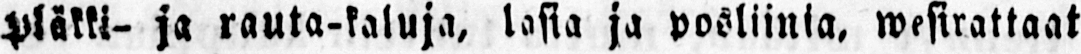pläkki- ja rauta-kaluja, lasia ja posliinia, wesirattaat
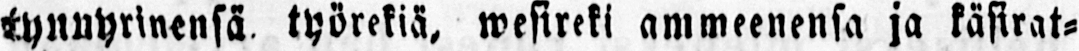tynnyrinensä työrekiä, wesireki ammeenensa ja käsirat-
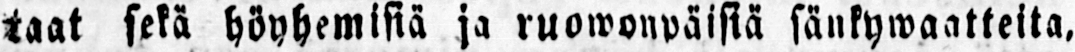taat sekä höyhemisiä ja ruowonpäisiä sänkywaatteita,
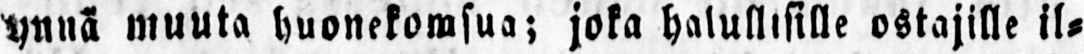ynnä muuta huonekomsua; joka halullisille ostajille il-
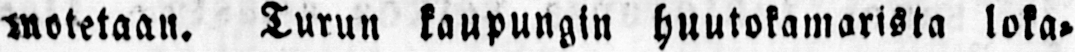motetaan. Turun kaupungin huutokamarista loka-
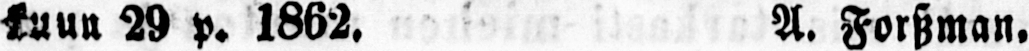kuun 29 p. 1862. A. Fortzman.
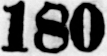180
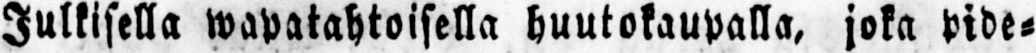Julkisella wapatahtoisella huutokaupalla, joka pide-
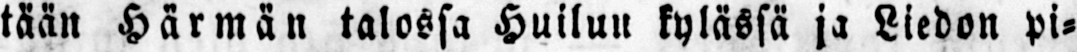tään Härmän talossa Huilun kylässä ja Liedon pi-
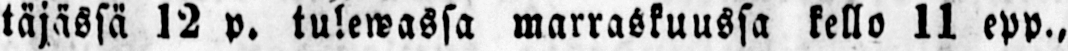täjässä 12 p. tulewassa marraskuussa kello 11 epp.,
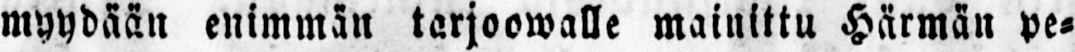myydään enimmän tarjoowalle mainittu Härmän pe-
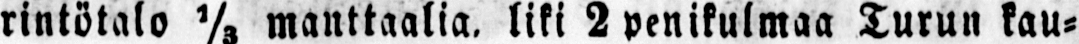rintötalo 1/3 manttaalia, liki 2 penikulmaa Turun kau-
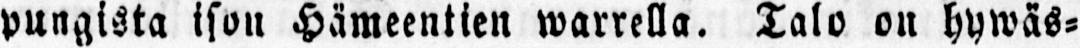pungista ison Hämeentien warrella. Talo on hywäs-
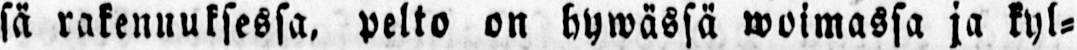sä rakenuuksessa, pelto on hywässä woimassa ja kyl-
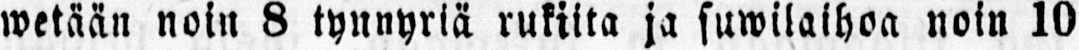wetään noin 8 tynnyriä rukiita ja suwilaihoa noin 10
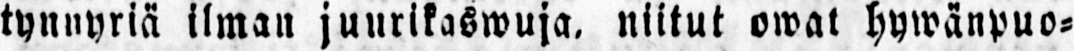tynnyriä ilman juurikaswuja, niitut owat hywänpuo-
